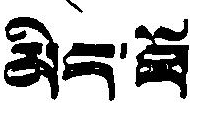མིང་ཐོ
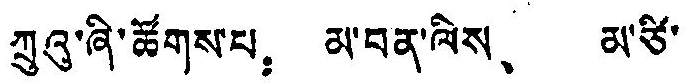ཀྲུའུ་ཞི་ཚོགས་པ： མ་བན་ལིས  མ་ཙི་
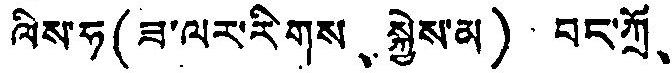ལིས་ཧ（ཟ་ལར་རིགས、སྐྱེས་མ） བང་ཀྲོ、
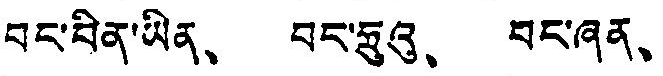བང་བིན་ཡི、 བང་ཧྲུའུ、 བང་ཞན、
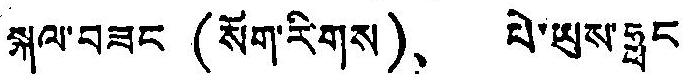སྐལ་བཟང （སོག་རིགས）、 པེ་ཡུས་ཧྥང
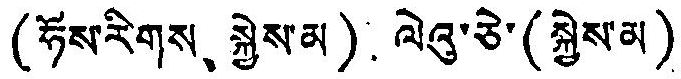（ཧོས་རིགས、 སྐྱེས་མ） ལེའུ་ཅེ་（སྐྱེས་མ）
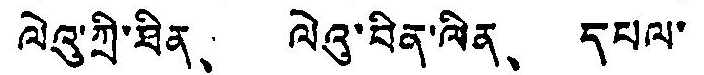ལེའུ་ཀྲི་ཟིན、 ལེའུ་བིན་ལིན、 དཔལ་
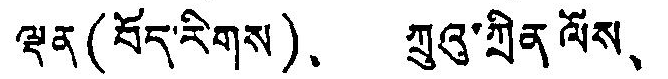ལྡན（བོད་རིགས）、 ཀྲུའུ་ཀྲིན ལོས、
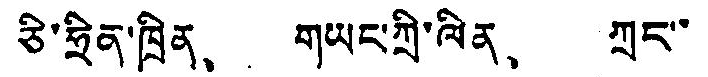ཅི་ཧྲིན་ཁྲིན、 གཡང་ཀྲི་ལིན、 ཀྲང་་
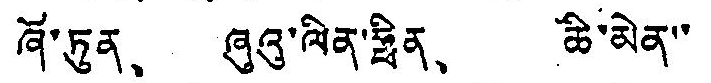ཞོ་ཏུན、 ཞུའུ་ལིན་ཧྥིན、 ཆི་མེན་་
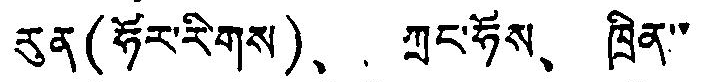རུན（ཧོར་རིགས）、 ཀྲུང་ཧོས、 ཁྲིན་་
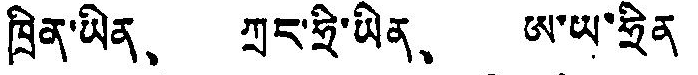ཁྲིན་ཡིན、 ཀྲང་ཧྲི་ཡིན、 ཨ་ཡ་ཧྲིན
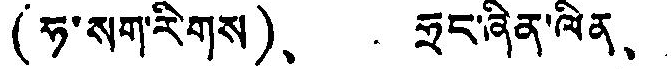（ཧ་སག་རིགས）、 ཧྲང་ཞིན་ལིན、
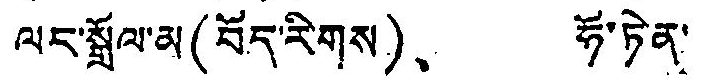ལང་སྒྲོལ་མ（བོད་རིགས）、 ཧོ་ཏེན་
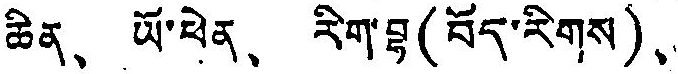ཆིན、 ཡོ་ཕན、 རག་བྷ（བོད་རིགས）
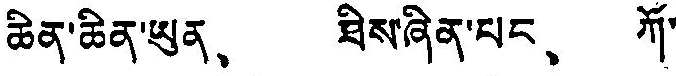ཆེན་ཆིན་ཡུན、 ཐིས་ཞིན་པང、 ཀོ་
